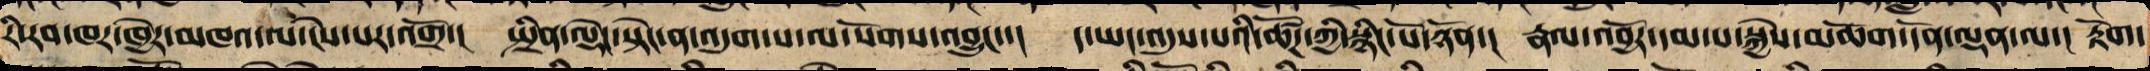རི་རབ་ཁར་ཁྱེར་མཁའ་ལ་ངེས་པར་འགྲོ་།   སྤྲིན་ལྡེང་སྟེང་ན་འདུག་པ་ལ་སོགས་འབྱུང་།   ད་ཡང་འདུས་པའི་ཚོགས་ཀྱི་སྙིང་པོ་ཉོན་།   རྣལ་འབྱོར་དམ་པ་སྐྱེས་མཆོག་དོན་ལྡན་ལ་། རྟོག་
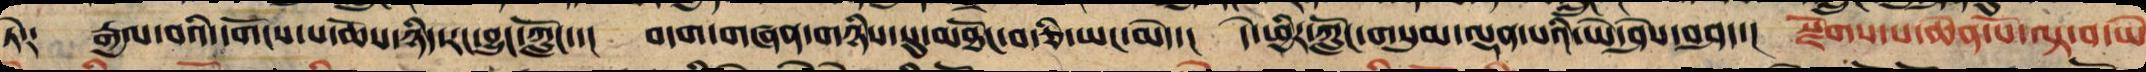ཏེ༑   རྒྱལ་བའི་དགོངས་པ་ཆོས་ཉིད་རང་བྱུང་ཀློང་་།   བདག་གཞན་གཉིས་སུ་མཐོང་བ་ཅི་ཡང་མེད་།   དེ་ཕྱིར་ཀློང་གསུམ་ལྡན་པའི་ཡེ་ཤེས་བཤད་།   སྫོགས་པ་ཆེན་པོ་ལྟ་བ་ཡེ
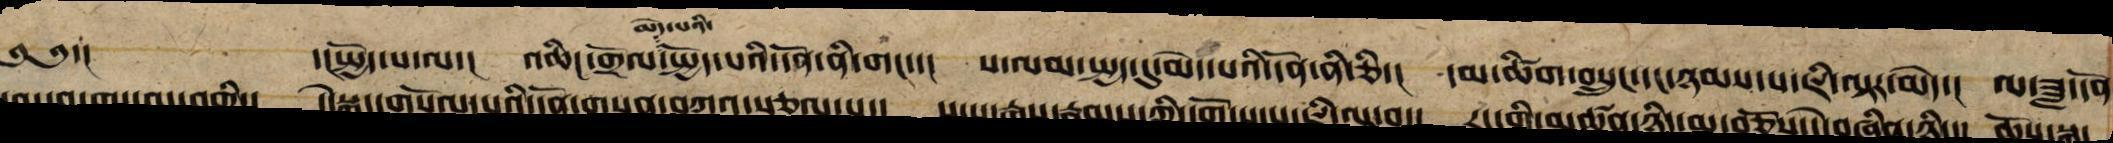༄༅།            ་།སྤྱོད་པ་ལ། འཆིང་གྲོལ་མེད་པའི་སྤྱོད་པའི་དོན་ནི་གང་། ས་ལམ་སྦྱང་དུ་མེད་པའི་དོན་ནི་ཅི། དམ་ཚིག་བསྲུང་དང་ཉམས་པ་ཇི་ལྟར་མེད། ལ་བཟླ་དོན་
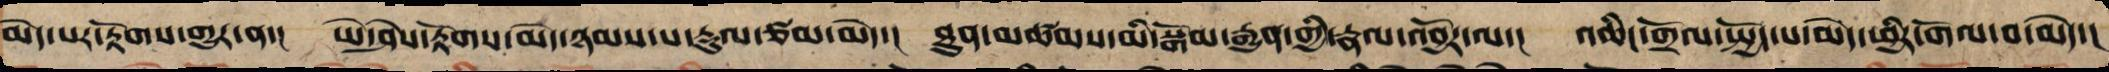མེད་པར་རྟོགས་གྱུར་ན་།   ཡེ་ཤེས་རྟོགས་མེད་ཉམས་པ་རྡུལ་ཙམ་མེད།   ཐུན་མཚམས་མི་སྒོམ་རྒྱུན་གྱི་རྣལ་འབྱོར་ལ་།   འཆིང་གྲོལ་སྤྱོད་པ་མེད་ཕྱིར་གོལ་ས་མེད་།
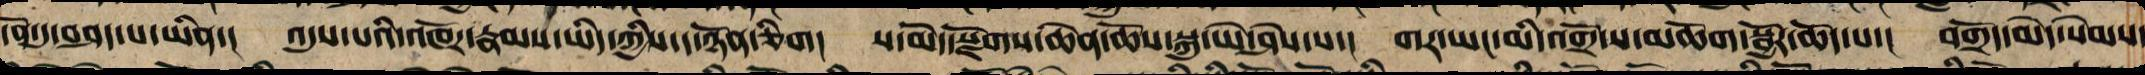དོན་དུ་བཤད་པ་ཡིན་།   འདུས་པའི་འཁོར་རྣམས་ཡིད་ཀྱིས་ད་ཉོན་ཅིག།   ས་མེད་སྫོགས་ཆེན་ཆོས་སྐུ་ཡེ་ཤེས་ས་།   གར་ཡང་མི་འགྲོ་ས་མཆོག་སྦྱོར་ཆོད་པ་།   བགྲོད་མེད་སེམས་
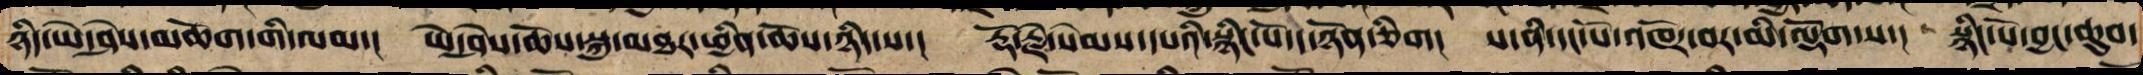ཉིད་ཡེ་ཤེས་མཆོག་གི་ལམ་།   ཡེ་ཤེས་ཆོས་སྐུ་མཐར་ཕྱིན་ཆོས་ཉིད་ས་།   རྡོ་རྗེ་སེམས་དཔའི་སྙིང་པོ་ད་ཉོན་ཅིག།   ས་ནི་དང་པོ་འཁོར་བར་མི་ལྡོག་ས་།   སྙིང་པོ་བྱང་ཆུབ་
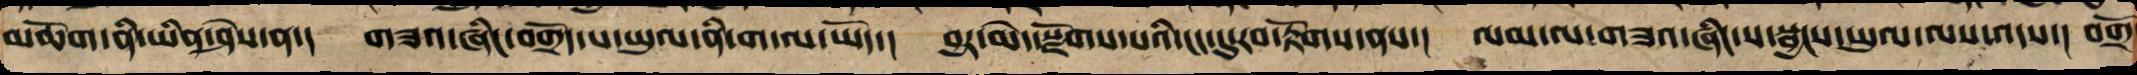མཆོག་ནི་ཡིན་ཤེས་ན་།   གཟའ་ཞིང་བགྲོད་པ་ཡུལ་ནི་ག་ལ་ཡོད་།   བྱར་མེད་སྫོགས་པའི་ངང་དུ་རབ་རྟོགས་ནས་།   ལམ་ལ་གཟའ་ཞིང་ས་སྦྱངས་ཡུལ་ལས་འདས་།   བགྲོ
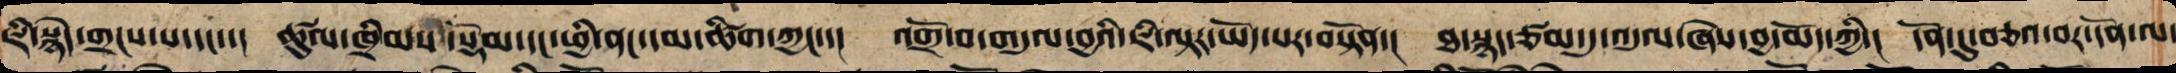ཇི་སྙེད་གྲངས་པ་དང་།   ཚུལ་ཁྲིམས་སྡོམ་དང་ཕྱི་ནང་དམ་ཚིག་ཀྱང་་།   འགྲོ་བ་གདུལ་བྱའི་ཇི་ལྟར་ཡོད་པར་བསྟོན་།   ཐ་སྙད་ཙམ་དུ་འདུལ་ཞེས་བྱ་མོད་ཀྱི་།   དམ་དུ་བཅའ་བར་དོན་ལ་
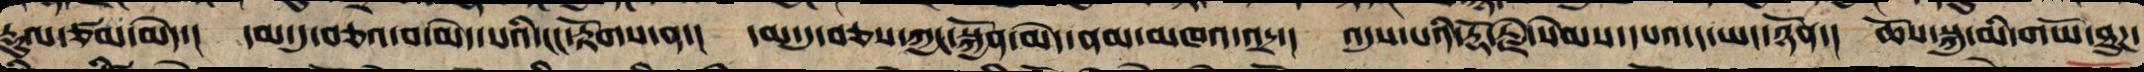རྡུལ་ཙམ་མེད་།   དམ་དུ་བཅའ་བ་མེད་པའི་ངང་རྟོགས་ན་།   དམ་དུ་བཅས་ཀྱང་སྐྱོན་མེད་ནམ་མཁའ་འདྲ་།   འདུས་པའི་རྡོ་རྗེ་སེམས་དཔའ་ད་ཡང་ཉོན་།   ཆོས་སྐུ་མི་གཡོ་ཐུཌ་
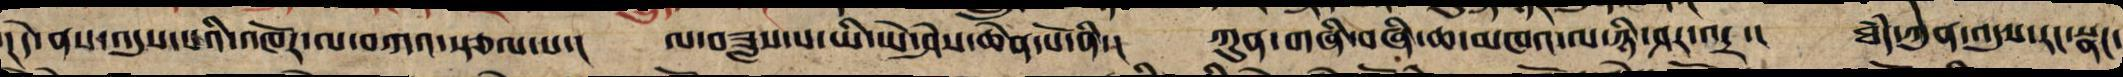དེ་ནས་འདུས་པའི་འཁོར་ལ་བཀའ་སྩལ་པ་།    ལ་བཟླས་པ་ཡི་ཡེ་ཤེས་ཆེན་པོ་ནི་།   ཀུན་གཞི་གཞི་ཆ་མཁའ་ལ་ཉི་ཤར་འདྲ་།   ཐཾད་ཀུན་འདུས་རང་སྣང་
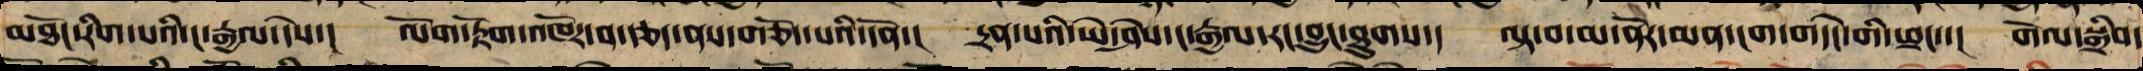མཐོང་རིག་པའི་ང་རྒྱལ་དེས་།   ལོག་རྟོག་འཁོར་བ་རྩད་ནས་གཅོད་པའི་དོན་།   དྲན་པའི་ཡེ་ཤེས་ང་རྒྱལ་རང་བྱུང་ཐུགས་།   ལྟ་བ་མ་ནོར་མན་ངག་གདེང་གི་ཕྲང་་། གོལ་སྒྲིབ་
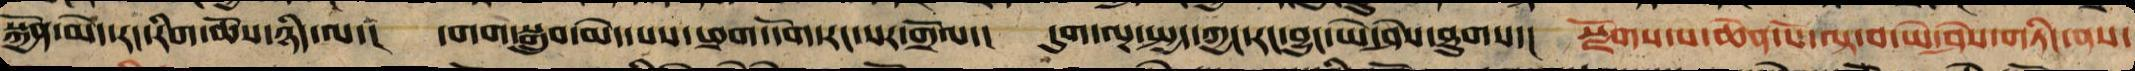སྐྱོན་མེད་རང་རིག་ཆོས་ཉིད་ལ་།   དགག་སྒྲུབ་མེད་པས་ཕྲག་དོག་རང་སར་གྲོལ་།   དུག་ལྔ་སྤྱད་ཀྱང་རང་བྱུང་ཡེ་ཤེས་ཐུགས་།   སྫོགས་པ་ཆེན་པོ་ལྟ་བ་ཡེ་ཤེས་གཏིང་ནས་
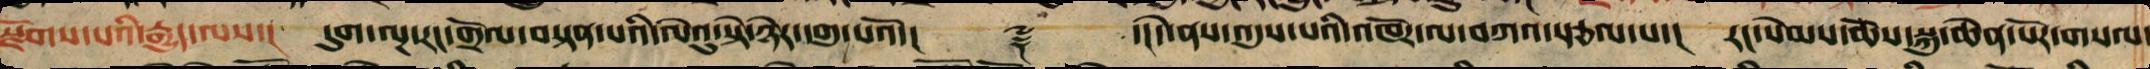སྫོགས་པའི་རྒྱུད་ལས།   དུག་ལྔ་རང་གྲོལ་བསྟན་པའི་ལེའུ་སྟེ་ཉེར་དགུ་པའོ།།     ༈     ་།།དེ་ནས་འདུས་པའི་འཁོར་ལ་བཀའ་སྩལ་པ།   རང་སེམས་ཆོས་སྐུ་ཆེན་པོར་གསལ་
